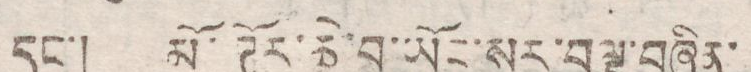དང་། མོ་ཊོར་ཆེ་བ་ཡོང་སར་བལྟ་བཞིན་
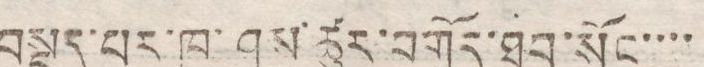བསྡད་པར་ཁ་ཤས་ཚུར་བགྲོད་ཐུབ་སོང་་་་
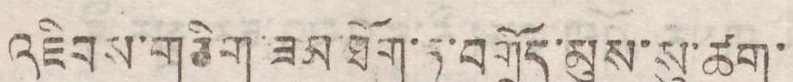འཇིབས་གཅིག་ཟམ་ཐོག་ཏུ་བགྲོད་མུས་སུ་ཚག་
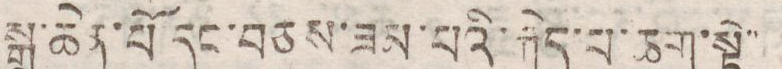སྒྲ་ཆེན་པོ་དང་བཅས་ཟམ་པའི་རྐེད་པ་ཆག་སྟེ་
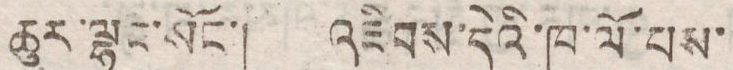ཆུར་ལྷུང་སོང་། འཇིབས་དེའི་ཁ་ལོ་པས་
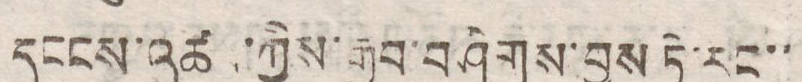དངངས་འཚབ་ཀྱིས་རྒྱབ་བཤིགས་བྱས ཏེ་རང་་
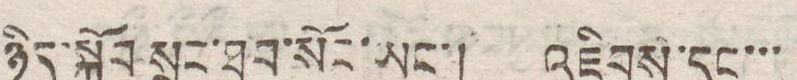ཉིད་སྐྱོབ་སྲུང་ཐུབ་སོང་ཡང་། འཇིབས་དང་་་
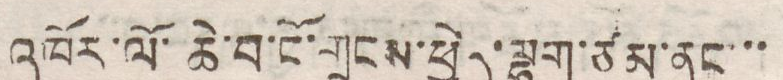འཁོར་ལོ་ཆེ་བ་ངོ་གྲངས་ཕྱེད་ལྷག་ཙམ་ནང་་་
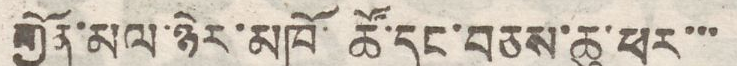གྱོན་མལ་ཉེར་མཁོ་ཚོ་དང་བཅས་ཆུ་ཕར་་་
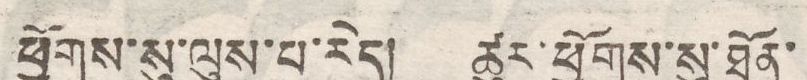ཕྱོགས་སུ་ལུས་པ་རེད། ཚུར་ཕྱོགས་སུ་ཐོན་
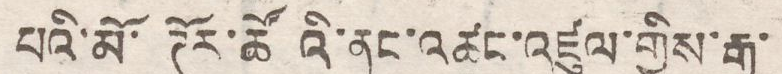པའི་མོ་ཊོར་ཚོའི་ནང་འཚང་འཛུལ་གྱིས་རྒྱ་
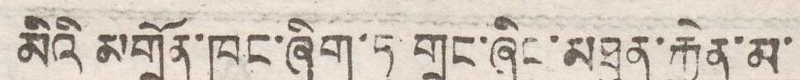མིའི མགྲོན་ཁང་ཞིག་ཏུ་གྲང་ཞིང་མཐུན་རྐྱེན་མ་
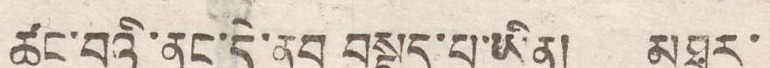ཚང་བའི་ནང་དེ་ནུབ བསྡད་པ་ཡིན། མཐར་
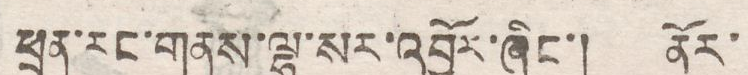ཕྲན་རང་གནས་ལྷ་སར་འབྱོར་ཞིང་། ནོར་
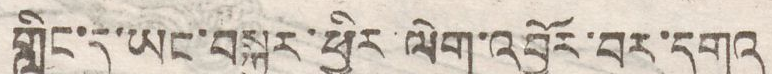གླིང་དུ་ཡང་བསྐྱར་ཕྱིར་ལེག་འབྱོར་བར་དགའ
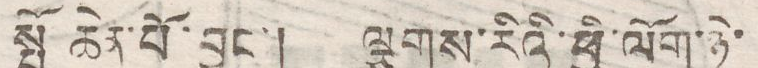སྤྲོ ཆེན་པོ་བྱུང་། ལྕགས་རིའི་ཕྱི་ལོག་ཉེ་
